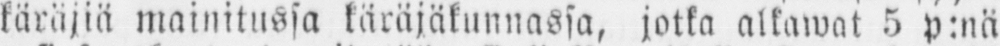käräjiä mainitussa käräjäkunnassa, jotka alkawat 5 p:nä
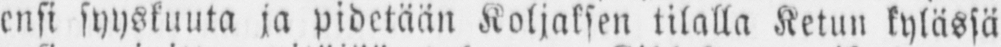ensi syyskuuta ja pidetään Koljaksen tilalla Ketun kylässä
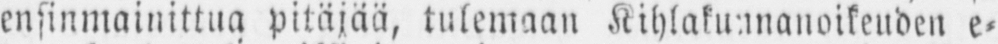ensinmainittua pitäjää, tulemaan Kihlakunnanoikeuden e-
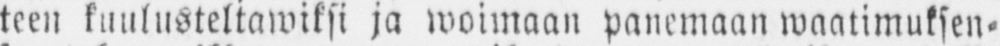teen kuulusteltawiksi ja woimaan panemaan waatimuksen-
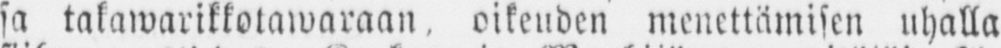sa takawarikkotawaraan, oikeuden menettämisen uhalla
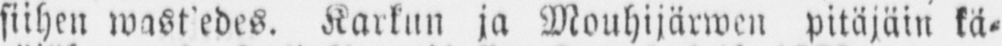siihen wast’edes. Karkun ja Mouhijärwen pitäjäin kä-
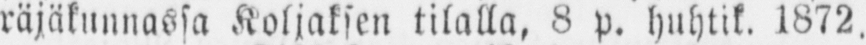räjäkunnassa Koljaksen tilalla, 8 p. huhtik. 1872.
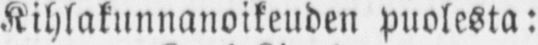Kihlakunnanoikeuden puolesta:
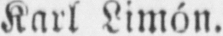Karl Limón.
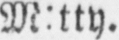M:tty.
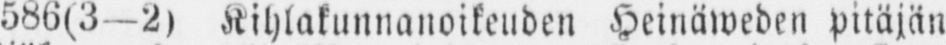586(3—2) Kihlakunnanoikeuden Heinäweden pitäjän
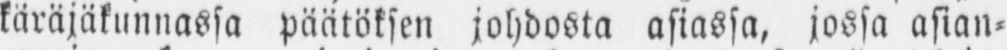käräjäkunnassa päätöksen johdosta asiassa, jossa asian-
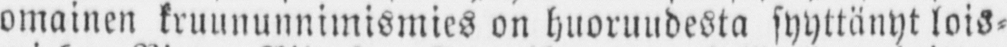omainen kruununnimismies on huoruudesta syyttänyt lois-
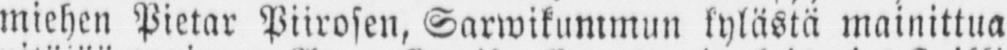miehen Pietar Piirosen, Sarwikummun kylästä mainittua
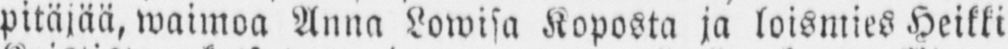pitäjää, waimoa Anna Lowisa Koposta ja loismies Heikki
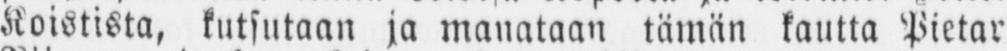Koistista, kutsutaan ja manataan tämän kautta Pietar
